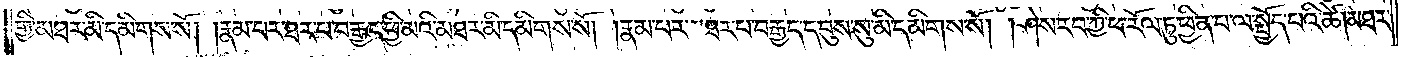གྱི་མཐར་མི་དམིགས་སོ། །རྣམ་པར་ཐར་པ་བརྒྱད་ཕྱི་མའི་མཐར་མི་དམིགས་སོ། །རྣམ་པར་ཐར་པ་བརྒྱད་དབུས་སུ་མི་དམིགས་སོ། །ཤེས་རབ་ཀྱི་ཕ་རོལ་ཏུ་ཕྱིན་པ་ལ་སྤྱོད་པའི་ཚེ། མཐར་
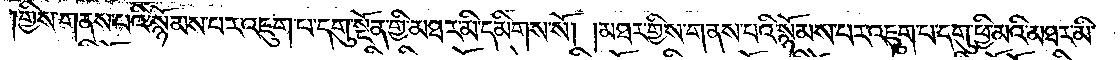གྱིས་གནས་པའི་སྙོམས་པར་འཇུག་པ་དགུ་སྔོན་གྱི་མཐར་མི་དམིགས་སོ། །མཐར་གྱིས་གནས་པའི་སྙོམས་པར་འཇུག་པ་དགུ་ཕྱི་མའི་མཐར་མི་
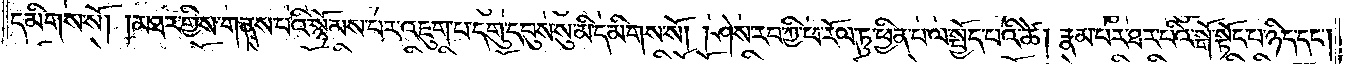དམིགས་སོ། །མཐར་གྱིས་གནས་པའི་སྙོམས་པར་འཇུག་པ་དགུ་དབུས་སུ་མི་དམིགས་སོ། །ཤེས་རབ་ཀྱི་ཕ་རོལ་ཏུ་ཕྱིན་པ་ལ་སྤྱོད་པའི་ཚེ། རྣམ་པར་ཐར་པའི་སྒོ་སྟོང་པ་ཉིད་དང༌།
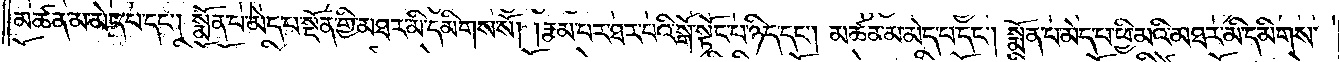མཚན་མ་མེད་པ་དང༌། སྨོན་པ་མེད་པ་སྔོན་གྱི་མཐར་མི་དམིགས་སོ། །རྣམ་པར་ཐར་པའི་སྒོ་སྟོང་པ་ཉིད་དང༌། མཚན་མ་མེད་པ་དང༌། སྨོན་པ་མེད་པ་ཕྱི་མའི་མཐར་མི་དམིགས་
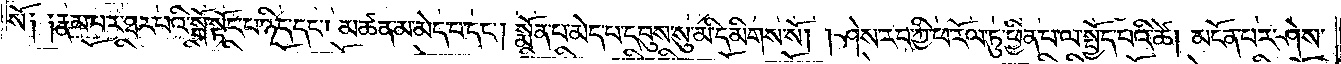སོ༑ ༑རྣམ་པར་ཐར་པའི་སྒོ་སྟོང་པ་ཉིད་དང༌། མཚན་མ་མེད་པ་དང༌། སྨོན་པ་མེད་པ་དབུས་སུ་མི་དམིགས་སོ། །ཤེས་རབ་ཀྱི་ཕ་རོལ་ཏུ་ཕྱིན་པ་ལ་སྤྱོད་པའི་ཚེ། མངོན་པར་ཤེས་
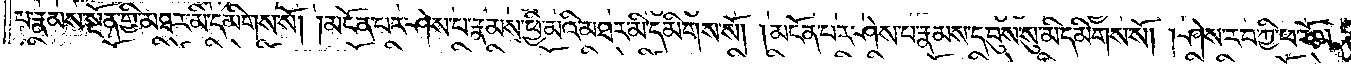པ་རྣམས་སྔོན་གྱི་མཐར་མི་དམིགས་སོ། །མངོན་པར་ཤེས་པ་རྣམས་ཕྱི་མའི་མཐར་མི་དམིགས་སོ། །མངོན་པར་ཤེས་པ་རྣམས་དབུས་སུ་མི་དམིགས་སོ། །ཤེས་རབ་ཀྱི་ཕ་རོལ་
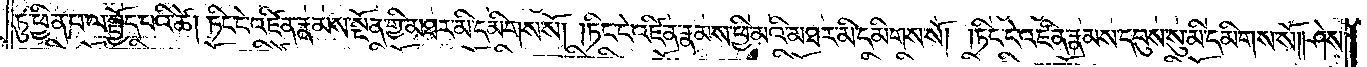ཏུ་ཕྱིན་པ་ལ་སྤྱོད་པའི་ཚེ། ཏིང་ངེ་འཛིན་རྣམས་སྔོན་གྱི་མཐར་མི་དམིགས་སོ། །ཏིང་ངེ་འཛིན་རྣམས་ཕྱི་མའི་མཐར་མི་དམིགས་སོ། །ཏིང་ངེ་འཛིན་རྣམས་དབུས་སུ་མི་དམིགས་སོ། །ཤེས་
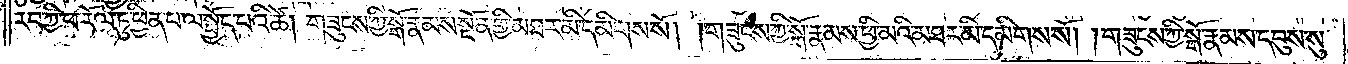རབ་ཀྱི་ཕ་རོལ་ཏུ་ཕྱིན་པ་ལ་སྤྱོད་པའི་ཚེ། གཟུངས་ཀྱི་སྒོ་རྣམས་སྔོན་གྱི་མཐར་མི་དམིགས་སོ། །གཟུངས་ཀྱི་སྒོ་རྣམས་ཕྱི་མའི་མཐར་མི་དམིགས་སོ། །གཟུངས་ཀྱི་སྒོ་རྣམས་དབུས་སུ་
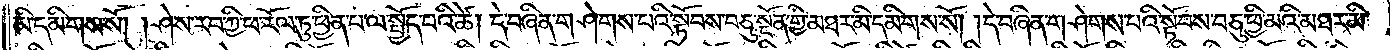མི་དམིགས་སོ། །ཤེས་རབ་ཀྱི་ཕ་རོལ་ཏུ་ཕྱིན་པ་ལ་སྤྱོད་པའི་ཚེ། དེ་བཞིན་གཤེགས་པའི་སྟོབས་བཅུ་སྔོན་གྱི་མཐར་མི་དམིགས་སོ། །དེ་བཞིན་གཤེགས་པའི་སྟོབས་བཅུ་ཕྱི་མའི་མཐར་མི་
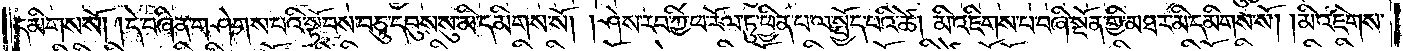དམིགས་སོ། །དེ་བཞིན་གཤེགས་པའི་སྟོབས་བཅུ་དབུས་སུ་མི་དམིགས་སོ། །ཤེས་རབ་ཀྱི་ཕ་རོལ་ཏུ་ཕྱིན་པ་ལ་སྤྱོད་པའི་ཚེ། མི་འཇིགས་པ་བཞི་སྔོན་གྱི་མཐར་མི་དམིགས་སོ། །མི་འཇིགས་
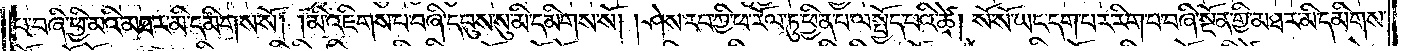པ་བཞི་ཕྱི་མའི་མཐར་མི་དམིགས་སོ། །མི་འཇིགས་པ་བཞི་དབུས་སུ་མི་དམིགས་སོ། །ཤེས་རབ་ཀྱི་ཕ་རོལ་ཏུ་ཕྱིན་པ་ལ་སྤྱོད་པའི་ཚེ། སོ་སོ་ཡང་དག་པར་རིག་པ་བཞི་སྔོན་གྱི་མཐར་མི་དམིགས་
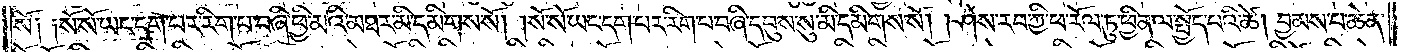སོ༑ ༑སོ་སོ་ཡང་དག་པར་རིག་པ་བཞི་ཕྱི་མའི་མཐར་མི་དམིགས་སོ། །སོ་སོ་ཡང་དག་པར་རིག་པ་བཞི་དབུས་སུ་མི་དམིགས་སོ། །ཤེས་རབ་ཀྱི་ཕ་རོལ་ཏུ་ཕྱིན་པ་ལ་སྤྱོད་པའི་ཚེ། བྱམས་པ་ཆེན་
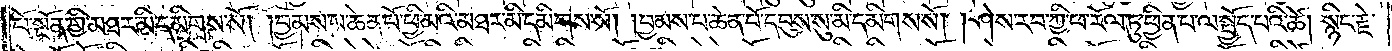པོ་སྔོན་གྱི་མཐར་མི་དམིགས་སོ། །བྱམས་པ་ཆེན་པོ་ཕྱི་མའི་མཐར་མི་དམིགས་སོ། །བྱམས་པ་ཆེན་པོ་དབུས་སུ་མི་དམིགས་སོ། །ཤེས་རབ་ཀྱི་ཕ་རོལ་ཏུ་ཕྱིན་པ་ལ་སྤྱོད་པའི་ཚེ། སྙིང་རྗེ་
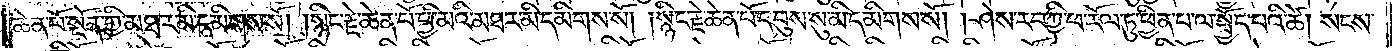ཆེན་པོ་སྔོན་གྱི་མཐར་མི་དམིགས་སོ། །སྙིང་རྗེ་ཆེན་པོ་ཕྱི་མའི་མཐར་མི་དམིགས་སོ། །སྙིང་རྗེ་ཆེན་པོ་དབུས་སུ་མི་དམིགས་སོ། །ཤེས་རབ་ཀྱི་ཕ་རོལ་ཏུ་ཕྱིན་པ་ལ་སྤྱོད་པའི་ཚེ། སངས་
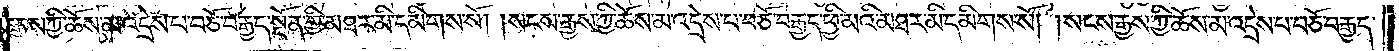རྒྱས་ཀྱི་ཆོས་མ་འདྲེས་པ་བཅོ་བརྒྱད་སྔོན་གྱི་མཐར་མི་དམིགས་སོ། །སངས་རྒྱས་ཀྱི་ཆོས་མ་འདྲེས་པ་བཅོ་བརྒྱད་ཕྱི་མའི་མཐར་མི་དམིགས་སོ། །སངས་རྒྱས་ཀྱི་ཆོས་མ་འདྲེས་པ་བཅོ་བརྒྱད་
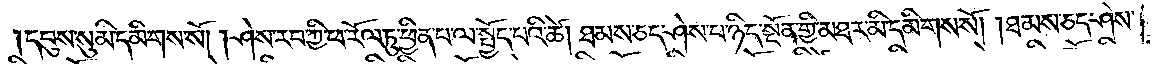དབུས་སུ་མི་དམིགས་སོ། །ཤེས་རབ་ཀྱི་ཕ་རོལ་ཏུ་ཕྱིན་པ་ལ་སྤྱོད་པའི་ཚེ། ཐམས་ཅད་ཤེས་པ་ཉིད་སྔོན་གྱི་མཐར་མི་དམིགས་སོ། །ཐམས་ཅད་ཤེས་
